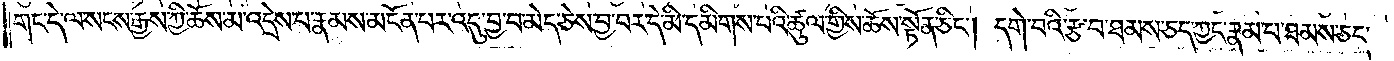གང་དེ་ལ་སངས་རྒྱས་ཀྱི་ཆོས་མ་འདྲེས་པ་རྣམས་མངོན་པར་འདུ་བྱ་བ་མེད་ཅེས་བྱ་པར་དེ་མི་དམིགས་པའི་ཚུལ་གྱིས་ཆོས་སྟོན་ཅིང༌། དགེ་བའི་རྩ་བ་ཐམས་ཅད་ཀྱང་རྣམ་པ་ཐམས་ཅད་
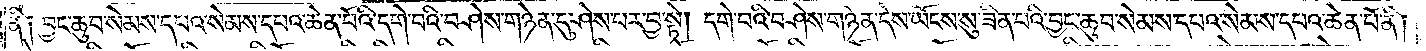ནི༑ བྱང་ཆུབ་སེམས་དཔའ་སེམས་དཔའ་ཆེན་པོའི་དགེ་བའི་བཤེས་གཉེན་དུ་ཤེས་པར་བྱ་སྟེ། དགེ་བའི་བཤེས་གཉེན་དེས་ཡོངས་སུ་ཟིན་པའི་བྱང་ཆུབ་སེམས་དཔའ་སེམས་དཔའ་ཆེན་པོ་ནི།
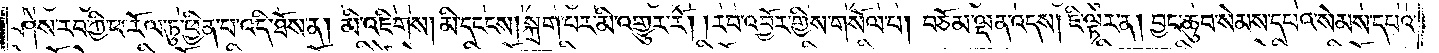ཤེས་རབ་ཀྱི་ཕ་རོལ་ཏུ་ཕྱིན་པ་འདི་ཐོས་ན། མི་འཇིགས། མི་དངངས། སྐྲག་པར་མི་འགྱུར་རོ། །རབ་འབྱོར་གྱིས་གསོལ་པ། བཅོམ་ལྡན་འདས། ཇི་ལྟར་ན། བྱང་ཆུབ་སེམས་དཔའ་སེམས་དཔའ་
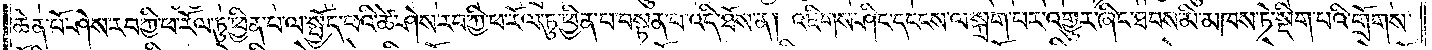ཆེན་པོ་ཤེས་རབ་ཀྱི་ཕ་རོལ་ཏུ་ཕྱིན་པ་ལ་སྤྱོད་པའི་ཚེ་ཤེས་རབ་ཀྱི་ཕ་རོལ་ཏུ་ཕྱིན་པ་བསྟན་པ་འདི་ཐོས་ན། འཇིགས་ཤིང་དངངས་ལ་སྐྲག་པར་འགྱུར་ཞིང་ཐབས་མི་མཁས་ཏེ་སྡིག་པའི་གྲོགས་
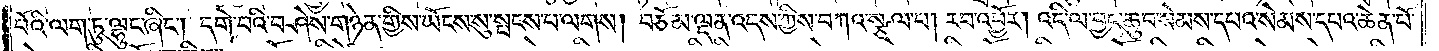པོའི་ལག་ཏུ་ལྷུང་ཞིང༌། དགེ་བའི་བཤེས་གཉེན་གྱིས་ཡོངས་སུ་སྤངས་པ་ལགས། བཅོམ་ལྡན་འདས་ཀྱིས་བཀའ་སྩལ་པ། རབ་འབྱོར། འདི་ལ་བྱང་ཆུབ་སེམས་དཔའ་སེམས་དཔའ་ཆེན་པོ་
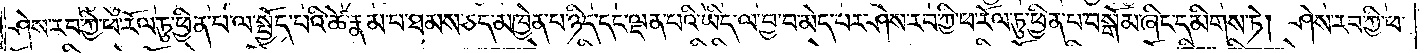ཤེས་རབ་ཀྱི་ཕ་རོལ་ཏུ་ཕྱིན་པ་ལ་སྤྱོད་པའི་ཚེ་རྣམ་པ་ཐམས་ཅད་མཁྱེན་པ་ཉིད་དང་ལྡན་པའི་ཡིད་ལ་བྱ་བ་མེད་པར་ཤེས་རབ་ཀྱི་ཕ་རོལ་ཏུ་ཕྱིན་པ་བསྒོམ་ཞིང་དམིགས་ཏེ། ཤེས་རབ་ཀྱི་ཕ་
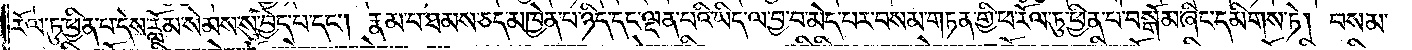རོལ་ཏུ་ཕྱིན་པ་དེས་རློམ་སེམས་ས་བྱེད་པ་དང༌། རྣམ་པ་ཐམས་ཅད་མཁྱེན་པ་ཉིད་དང་ལྡན་པའི་ཡིད་ལ་བྱ་བ་མེད་པར་བསམ་གཏན་གྱི་ཕ་རོལ་ཏུ་ཕྱིན་པ་བསྒོམ་ཞིང་དམིགས་ཏེ། བསམ་
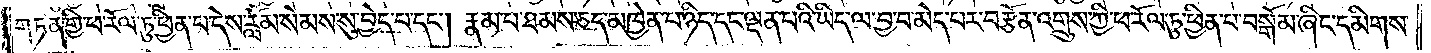གཏན་གྱི་ཕ་རོལ་ཏུ་ཕྱིན་པ་དེས་རློམ་སེམས་སུ་བྱེད་པ་དང༌། རྣམ་པ་ཐམས་ཅད་མཁྱེན་པ་ཉིད་དང་ལྡན་པའི་ཡིད་ལ་བྱ་བ་མེད་པར་བརྩོན་འགྲུས་ཀྱི་ཕ་རོལ་ཏུ་ཕྱིན་པ་བསྒོམ་ཞིང་དམིགས་
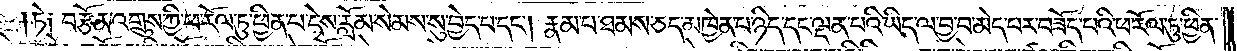ཏེ༑ བརྩོན་འགྲུས་ཀྱི་ཕ་རོལ་ཏུ་ཕྱིན་པ་དེས་རློམ་སེམས་སུ་བྱེད་པ་དང༌། རྣམ་པ་ཐམས་ཅད་མཁྱེན་པ་ཉིད་དང་ལྡན་པའི་ཡིད་ལ་བྱ་བ་མེད་པར་བཟོད་པའི་ཕ་རོལ་ཏུ་ཕྱིན་
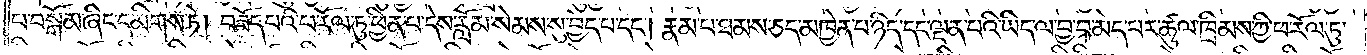པ་བསྒོམ་ཞིང་དམིགས་ཏེ། བཟོད་པའི་ཕ་རོལ་ཏུ་ཕྱིན་པ་དེས་རློམ་སེམས་སུ་བྱེད་པ་དང༌། རྣམ་པ་ཐམས་ཅད་མཁྱེན་པ་ཉིད་དང་ལྡན་པའི་ཡིད་ལ་བྱ་བ་མེད་པར་ཚུལ་ཁྲིམས་ཀྱི་ཕ་རོལ་ཏུ་
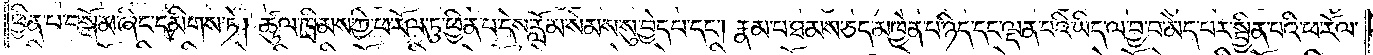ཕྱིན་པ་བསྒོམ་ཞིང་དམིགས་ཏེ། ཚུལ་ཁྲིམས་ཀྱི་ཕ་རོལ་ཏུ་ཕྱིན་པ་དེས་རློམ་སེམས་སུ་བྱེད་པ་དང༌། རྣམ་པ་ཐམས་ཅད་མཁྱེན་པ་ཉིད་དང་ལྡན་པའི་ཡིད་ལ་བྱ་བ་མེད་པར་སྦྱིན་པའི་ཕ་རོལ་
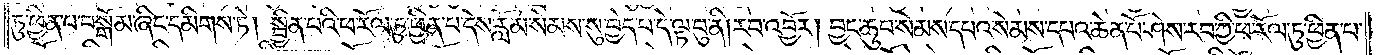ཏུ་ཕྱིན་པ་བསྒོམ་ཞིང་དམིགས་ཏེ། སྦྱིན་པའི་ཕ་རོལ་ཏུ་ཕྱིན་པ་དེས་རློམ་སེམས་སུ་བྱེད་པ་དེ་ལྟ་བུ་ནི། རབ་འབྱོར། བྱང་ཆུབ་སེམས་དཔའ་སེམས་དཔའ་ཆེན་པོ་ཤེས་རབ་ཀྱི་ཕ་རོལ་ཏུ་ཕྱིན་པ་
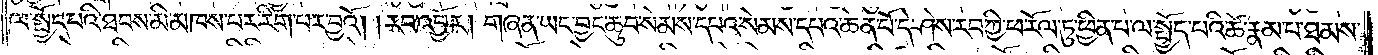ལ་སྤྱོད་པའི་ཐབས་མི་མཁས་པར་རིག་པར་བྱའོ། །རབ་འབྱོར། གཞན་ཡང་བྱང་ཆུབ་སེམས་དཔའ་སེམས་དཔའ་ཆེན་པོ་དེ་ཤེས་རབ་ཀྱི་ཕ་རོལ་ཏུ་ཕྱིན་པ་ལ་སྤྱོད་པའི་ཚེ་རྣམ་པ་ཐམས་
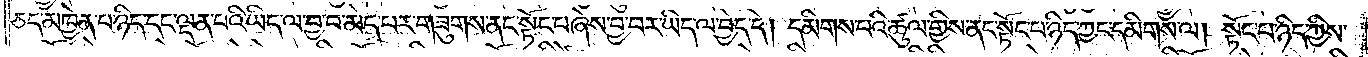ཅད་མཁྱེན་པ་ཉིད་དང་ལྡན་པའི་ཡིད་ལ་བྱ་བ་མེད་པར་གཟུགས་ནང་སྟོང་པ་ཞེས་བྱ་བར་ཡིད་ལ་བྱེད་དེ། དམིགས་པའི་ཚུལ་གྱིས་ནང་སྟོང་པ་ཉིད་ཀྱང་དམིགས་ལ། སྟོང་པ་ཉིད་ཀྱིས་
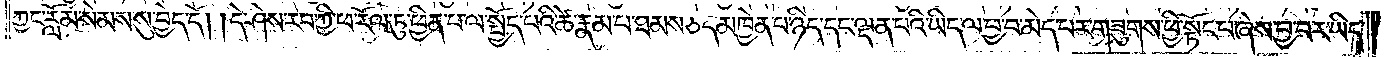ཀྱང་རློམ་སེམས་སུ་བྱེད་དོ། །དེ་ཤེས་རབ་ཀྱི་ཕ་རོལ་ཏུ་ཕྱིན་པ་ལ་སྤྱོད་པའི་ཚེ་རྣམ་པ་ཐམས་ཅད་མཁྱེན་པ་ཉིད་དང་ལྡན་པའི་ཡིད་ལ་བྱ་བ་མེད་པར་གཟུགས་ཕྱི་སྟོང་པ་ཞེས་བྱ་བར་ཡིད་
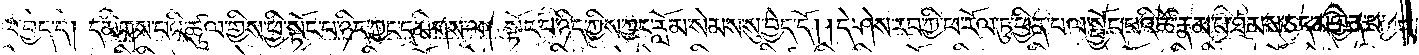ལ་བྱེད་དེ། དམིགས་པའི་ཚུལ་གྱིས་ཕྱི་སྟོང་པ་ཉིད་ཀྱང་དམིགས་ལ། སྟོང་པ་ཉིད་ཀྱིས་ཀྱང་རློམ་སེམས་སུ་བྱེད་དོ། །དེ་ཤེས་རབ་ཀྱི་ཕ་རོལ་ཏུ་ཕྱིན་པ་ལ་སྤྱོད་པའི་ཚེ་རྣམ་པ་ཐམས་ཅད་མཁྱེན་པ་
